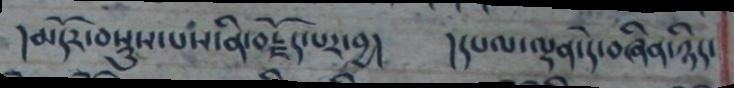།མདོར་བསྡུས་པས་ནི་བརྗོད་པར་བྱ། །དཔལ་ལྡན་དེ་བཞིན་ཉིད་
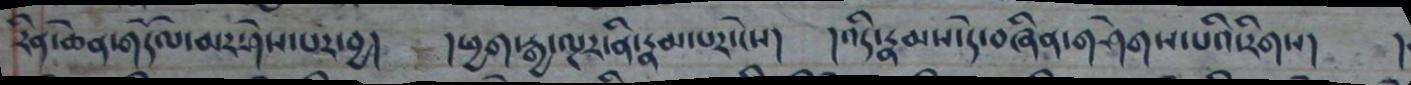རིན་ཆེན་གདོལ་མར་ཤེས་པར་བྱ། །ཕྱག་རྒྱ་ལྔར་ནི་རྣམ་པར་ངེས། །འདི་རྣམས་དེ་བཞིན་གཤེགས་པའི་རིགས། །
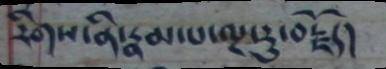རིགས་ནི་རྣམ་པ་ལྔ་རུ་བརྗོད།
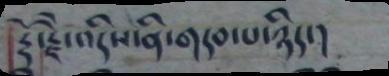རྡོ་རྗེ་འདིས་ནི་གདབ་པ་ཉིད་།
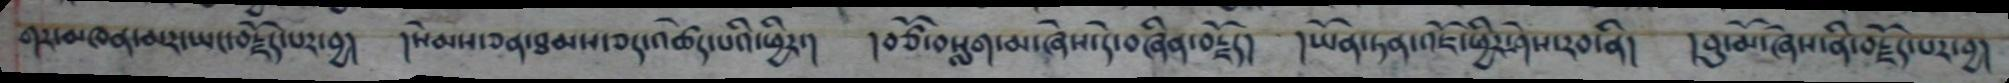གར་མཁན་མར་ཡང་བརྗོད་པར་བྱ། །སེམས་ཅན་ཐམས་ཅད་འཚེད་པའི་ཕྱིར་། །བཙོ་བསླག་མ་ཞེས་དེ་བཞིན་བརྗོད། །ཡོན་ཏན་འཇོ་ཕྱིར་ཤེས་རབ་ནི། །བུ་མོ་ཞེས་ནི་བརྗོད་པར་བྱ།
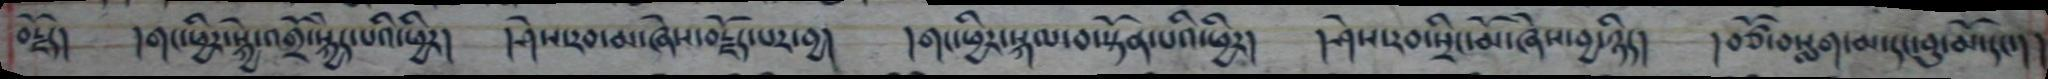བརྗོད། །གང་ཕྱིར་སྐྱེ་འགྲོ་སྐྱེད་པའི་ཕྱིར། །ཤེས་རབ་མ་ཞེས་བརྗོད་པར་བྱ། །གང་ཕྱིར་སྐམ་བ་སྟོན་པའི་ཕྱིར། །ཤེས་རབ་སྲིང་མོ་ཞེས་བྱ་ཉིད། །བཙོ་བསླག་མ་དང་བུ་མོ་དང་།།
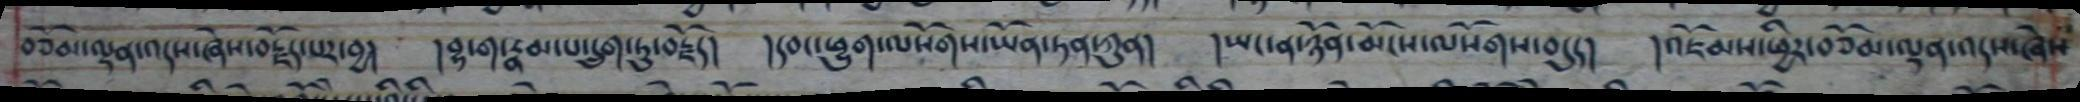བཅོམ་ལྡན་འདས་ཞེས་བརྗོད་པར་བྱ། །བྷ་ག་རྣམ་པ་དྲུག་དུ་བརྗོད། །དབང་ཕྱུག་ལསོགས་ཡོན་ཏན་ཀུན། །ཡང་ན་ཉོན་མོངས་ལསོགས་ནདུད། །འཇོམས་ཕྱིར་བཅོམ་ལྡན་འདས་ཞེས
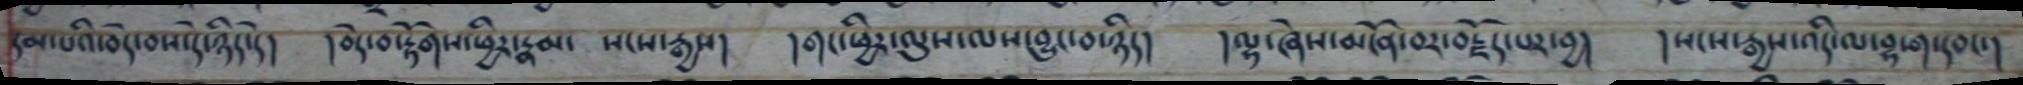དམ་པའི་བདེ་བས་དེ་ཉིད་དེ། །བདེ་བ་རྟོགས་ཕྱིར་རྣམ་ སངས་རྒྱས། །གང་ཕྱིར་ལུས་ལས་བྱུང་བ་ཉིད། །ལྷ་ཞེས་མངོན་བར་བརྗོད་པར་བྱ། །སངས་རྒྱས་འདི་ལ་བྷ་ག་དབང་།
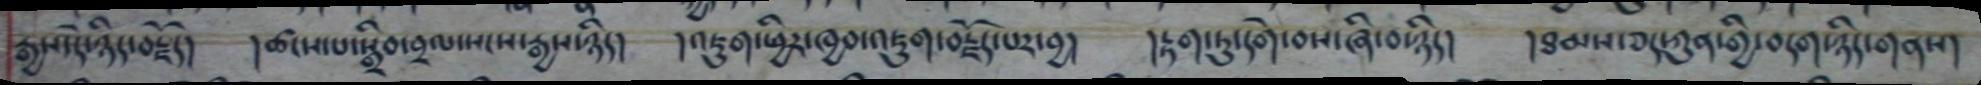རྒྱས་དེ་ཉིད་བརྗོད། །ཚངས་པ་སྒྲིབ་བྲལ་སངས་རྒྱས་ཉིད། །འཇུག་ཕྱིར་ཁྱབ་འཇུག་བརྗོད་པར་བྱ། །རྟག་ཏུ་དགེ་བས་ཞི་བ་ཉིད། །ཐམས་ཅད་ཀུན་གྱི་བདག་ཉིད་གནས།
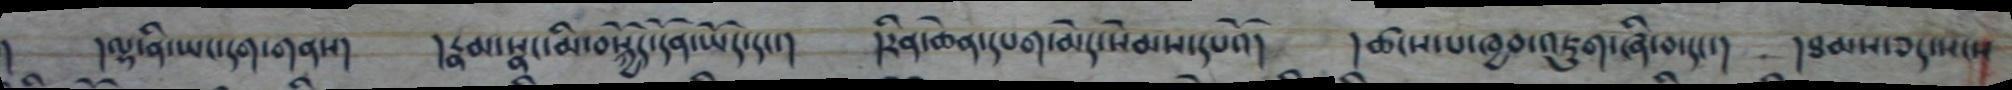། །ལྷ་ནི་ཡང་དག་གནས། །རྣམ་སྣང་མི་བསྐྱོད་དོན་ཡོད་དང་། །རིན་ཆེན་དཔག་མེད་སེམས་དཔའོ། །ཚངས་པ་ཁྱབ་འཇུག་ཞི་བ་དང་། །ཐམས་ཅད་སངས
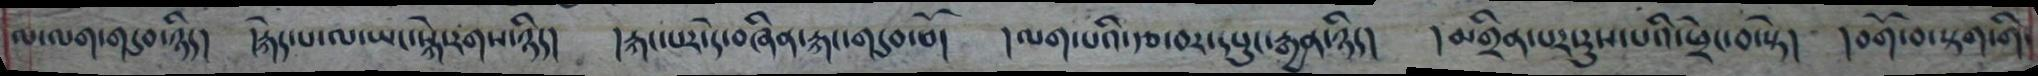ལ་ལག་གདུབ་ཉིད། །རྐེད་པ་ལ་ཡང་སྐེ་རགས་ཉིད། །རྐང་པར་དེ་བཞིན་རྐང་གདུབ་བོ། །ལག་པའི་རྩ་བར་དཔུང་རྒྱན་ཉིད། །མགྲིན་པར་རུས་པའི་ཕྲེང་བ་སྟེ། །བགོ་བ་སྟག་གི་
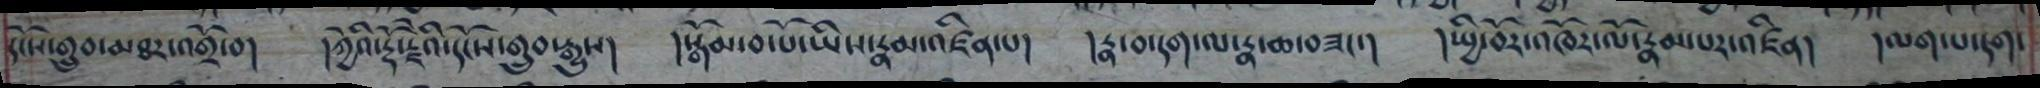དངོས་གྲུབ་མཐར་འགྲོ་བ། །ཀྱེའི་རྡོ་རྗེའི་དངོས་གྲུབ་རྒྱུས། །སྒོམ་བ་པོ་ཡིས་རྣམ་འཛིན་པ། །རྣ་བ་དག་ལ་རྣ་ཆ་བཟང་། །སྤྱི་བོར་འཁོར་ལོ་རྣམ་པར་འཛིན། །ལག་པ་དག་
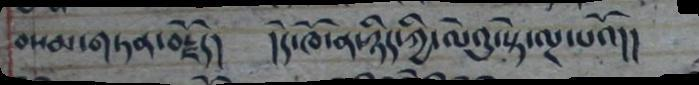བསམ་གཏན་བརྗོད། །དེ་ཁོ་ན་ཉིད་ཀྱི་ལེའུ་སྟེ་ལྔ་པའོ།།
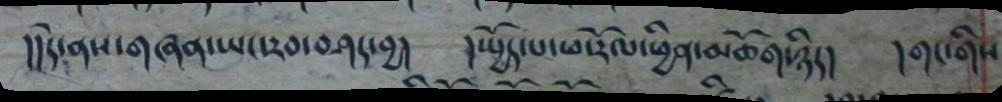།།དེ་ནས་གཞན་ཡང་རབ་བཤད་བྱ། །སྤྱོད་པ་ཕ་རོལ་ཕྱིན་མཆོག་ཉིད། །གང་གིས
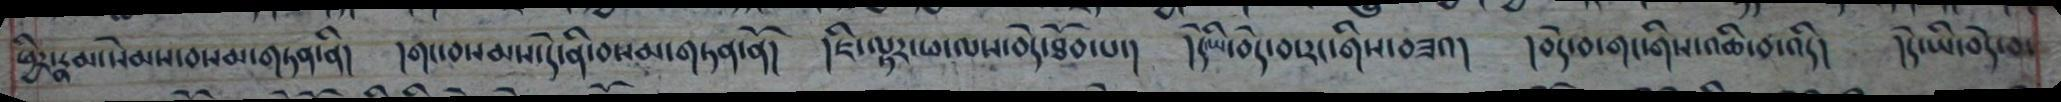ཕྱིར་རྣམ་སེམས་བསམ་གཏན་ནི། །གང་བསམས་དེ་ནི་བསམ་གཏན་ནོ། ཇི་ལྟར་ཕ་ལས་བདེ་ཐོབ་པ་། །དེ་ཡི་བདེ་བ་རང་གིས་བཟའ། །བདེ་བ་གང་གིས་འཆི་བ་འདི། །དེ་ཡི་བདེ་བ་
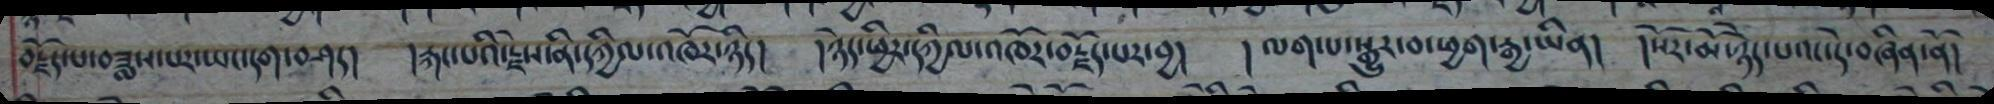བརྗོད་པ་བཟླས་པར་ཡང་དག་བཤད། །རྐང་པའི་རྗེས་ནི་དཀྱིལ་འཁོར་ཉིད། །ཉིད་ཕྱིར་དཀྱིལ་འཁོར་བརྗོད་པར་བྱ། །ལག་པ་སྒྱུར་བ་ཕྱག་རྒྱ་ཡིན། །སོར་མོ་ཉིད་པའང་དེ་བཞིན་ནོ།
